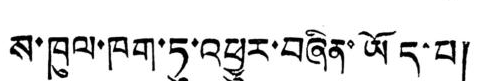ས་ཁུལ་ཁག་ཏུ་འཕྱུར་བཞིན་ཡོད་པ།
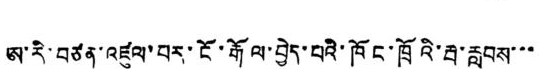ཨ་རི་བཙན་འཛུལ་བར་ངོ་རྒོལ་བྱེད་པའི་ཁོང་ཁྲོའི་རྦ་རླབས་་་
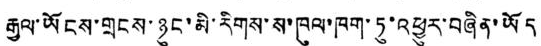རྒྱལ་ཡོངས་གྲངས་ཉུང་མི་རིགས་ས་ཁུལ་ཀཧག་ཏུ་འཕྱུར་བཞིན་ཡོད
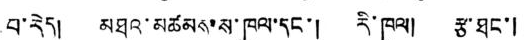པ་རེད། མཐའ་མཚམས་ས་ཁུལ་དང་། རི་ཁུལ། རྩ་ཐང་།
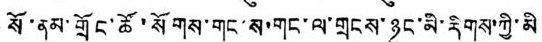སོ་ནམ་གྲོང་ཚོ་སོགས་གང་ས་གང་ལ་གྲངས་ཉུང་མི་རིགས་ཀྱི་མི
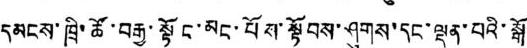དམངས་ཁྲི་ཚོ་བརྒྱ་སྟོང་མང་པོས་སྟོབས་ཤུགས་དང་ལྡན་པའི་སྒོ
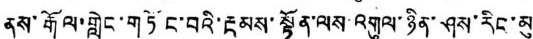ནས་རྒོལ་གླེང་གཏོང་བའི་རྔམས་སྟོན་ལས་འགུལ་ཉིན་ཤས་རིང་མུ
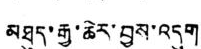མཐུད་རྒྱ་ཆེར་བྱས་འདུག
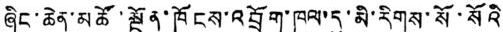ཞིང་ཆེན་མཚོ་སྔོན་ཁོངས་འབྲོག་ཁུལ་དུ་མི་རིགས་སོ་སོའི
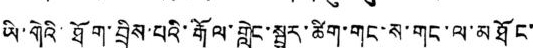ཡི་གེའི་ཐོག་བྲིས་པའི་རྒོལ་གླེང་སྦྱར་ཚིག་གང་ས་གང་ལ་མཐོང་
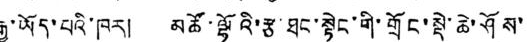རྒྱུ་ཡོད་པའི་ཁར། མཚོ་ལྷོའི་རྩ་ཐང་སྟེང་གི་གྲོང་སྡེ་ཆེ་ཤོས་
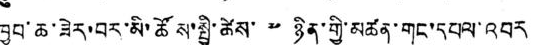ཁྱབ་ཆ་ཟེར་བར་མི་ཚོས་སྤྱི་ཚེས་ ༧ ཉིན་གྱི་མཚན་གང་དཔལ་འབར
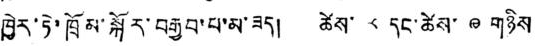ཁྱེར་ཏེ་ཁྲོམ་སྐོར་བརྒྱབ་པ་མ་ཟད། ཚེས་ ༨ དང་ཚེས་ ༩ གཉིས
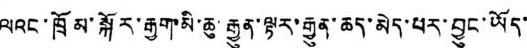ལའང་ཁྲོམ་སྐོར་རྒྱག་མི་ཆུ་རྒྱུན་ལྟར་རྒྱུན་ཆད་མེད་པར་བྱུང་ཡོད་
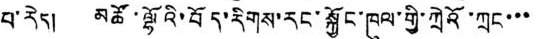པ་རེད། མཚོ་ལྷོའི་བོད་རིགས་རང་སྐྱོང་ཁུལ་གྱི་ཀྲེའོ་ཀྲང་་་
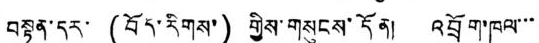བསྟན་དར་ (བོད་རིགས་) གྱིས་གསུངས་དོན། འབྲོག་ཁུལ་་་
